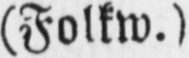(Folkw.)
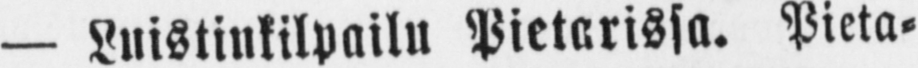— Luistinkilpailu Pietarissa. Pieta-
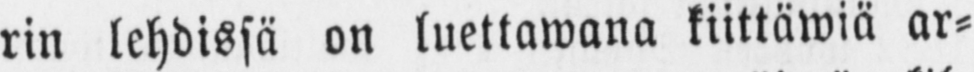rin lehdissä on luettawana kiittäwiä ar-
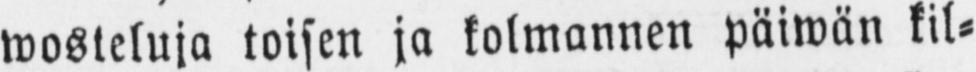wosteluja toisen ja kolmannen päiwän kil-
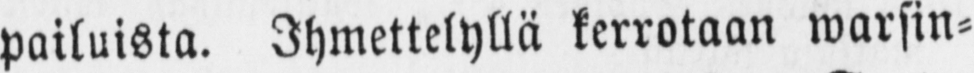pailuista. Ihmettelyllä kerrotaan warsin-
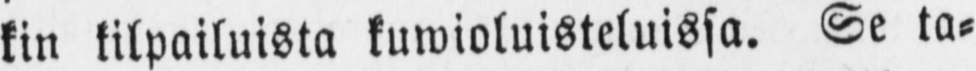kin kilpailuista kuwioluisteluissa. Se ta-
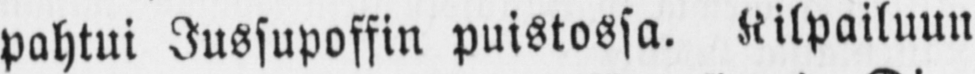pahtui Jussupoffin puistossa. Kilpailuun
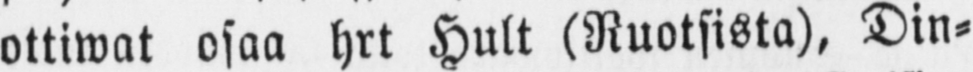ottiwat osaa hrt Hult (Ruotsista), Din-
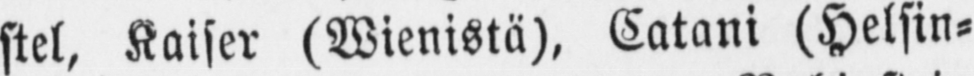stel, Kaiser (Wienistä), Catani (Helsin-
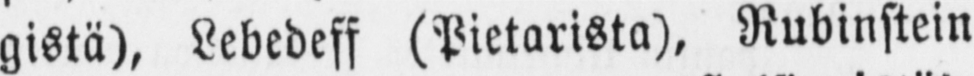gistä), Lebedesf (Pietarista), Rubinstein
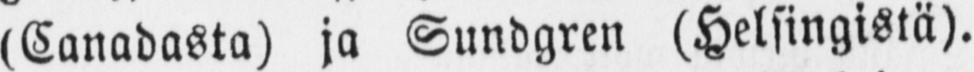(Canadasta) ja Lundgren (Helsingistä).
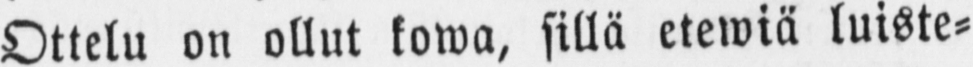Ottelu on ollut kowa, sillä etewiä luiste-
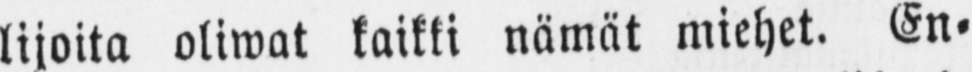lijoita oliwat kaikki nämät miehet. En-
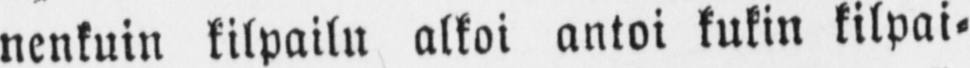nenkuin kilpailu alkoi antoi kukin kilpai-
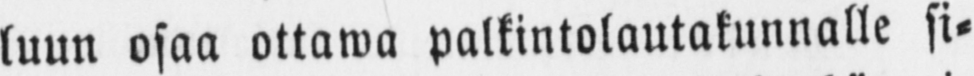luun osaa ottawa palkintolautakunnalle si-
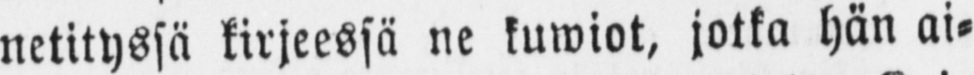netityssä kirjeessä ne kuwiot, jotka hän ai-
